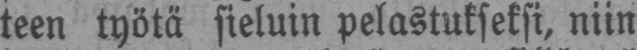teen työtä sieluin pelastukseksi, niin
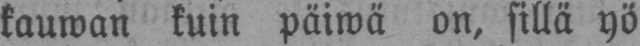lauwan kuin päiwä on, sillä yö
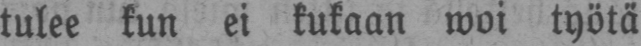tulee kun ei kukaan woi työtä
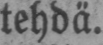tehdä.
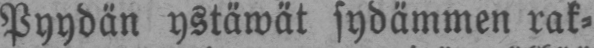Pyydän ystäwät sydämmen rak-
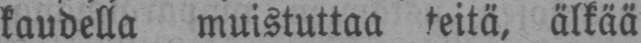kaudella muistuttaa teitä, älkää
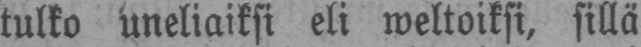tulko uneliaiksi eli weltoiksi, sillä
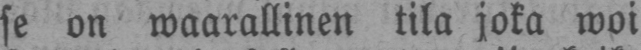se on waarallinen tila joka woi
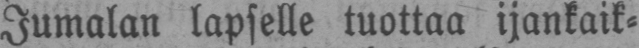Jumalan lapselle tuottaa ijankaik-
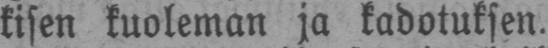kisen kuoleman ja kadotuksen.
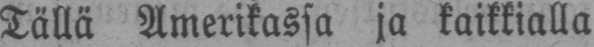Tällä Amerikassa ja kaikkialla
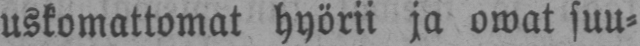uskomattomat hyörii ja owat suu-
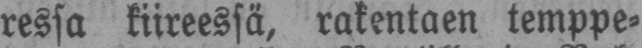ressa kiireessä, rakentaen temppe-
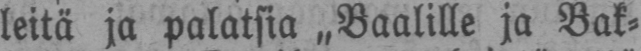leitä ja palatsia „Baalille ja Bak-
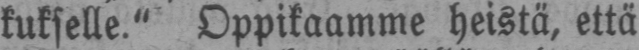kukselle." Oppikaamme heistä, että
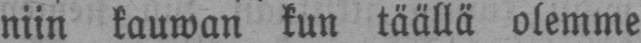niin kauwan kun täällä olemme
